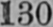130
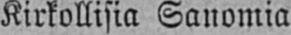Kirkollisia Sanomia.
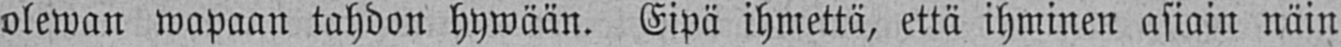olewan wapaan tahdon hywään. Eipä ihmettä, että ihminen asiain näin
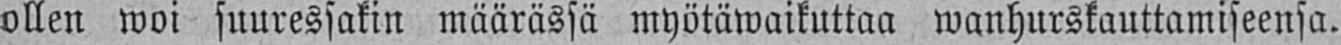ollen woi suuressakin määrässä myötäwaikuttaa wanhurskauttamiseensa.
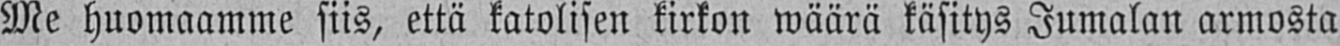Me huomaamme siis, että katolisen kirkon wäärä käsitys Jumalan armosta
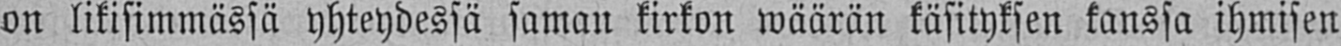on likisimmässä yhteydessä saman kirkon wäärän käsityksen kanssa ihmisen
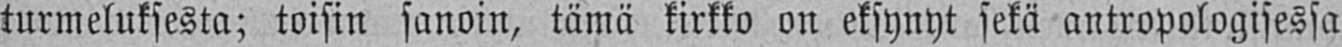turmeluksesta; toisin sanoin, tämä kirkko on eksynyt sekä antropologisessa
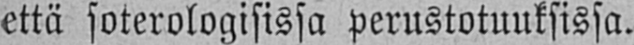että soterologisissa perustotuuksissa.
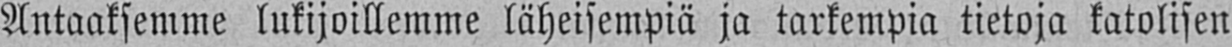Antaaksemme lukijoillemme läheisempiä ja tarkempia tietoja katolisen
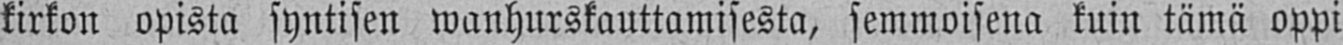kirkon opista syntisen wanhurskauttamisesta, semmoisena kuin tämä oppi
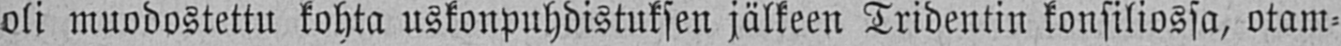oli muodostettu kohta uskonpuhdistuksen jälkeen Tridentin konsiliossa, otam-
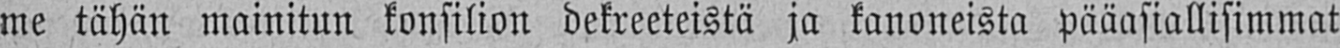me tähän mainitun konsilion dekreeteistä ja kanoneista pääasiallisimmat
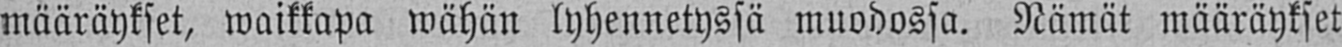määräykset, waikkapa wähän lyhennetyssä muodossa. Nämät määräykset
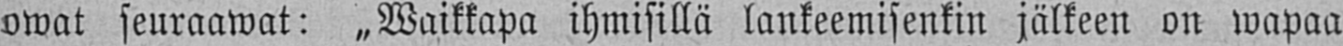owat seuraawat: „Waikkapa ihmisillä lankeemisenkin jälkeen on wapaa
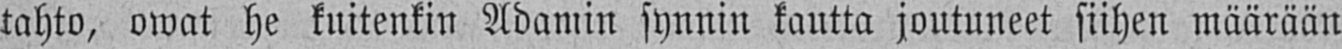tahto, owat he kuitenkin Adamin synnin kautta joutuneet siihen määrään
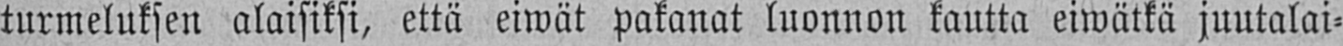turmeluksen alaisiksi, että eiwät pakanat luonnon kautta eiwätlkä juutalai-
